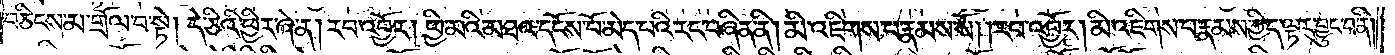བཅིངས་མ་གྲོལ་བ་སྟེ། དེ་ཅིའི་ཕྱིར་ཞེ་ན། རབ་འབྱོར། ཕྱི་མའི་མཐའ་དངོས་པོ་མེད་པའི་རང་བཞིན་ནི། མི་འཇིགས་པ་རྣམས་སོ། །རབ་འབྱོར། མི་འཇིགས་པ་རྣམས་ཀྱི་ད་ལྟར་བྱུང་བ་ནི།
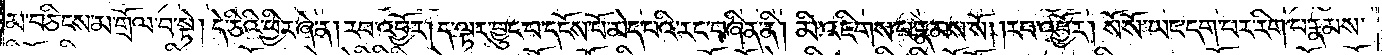མ་བཅིངས་མ་གྲོལ་བ་སྟེ། དེ་ཅིའི་ཕྱིར་ཞེ་ན། རབ་འབྱོར། ད་ལྟར་བྱུང་བ་དངོས་པོ་མེད་པའི་རང་བཞིན་ནི། མི་འཇིགས་པ་རྣམས་སོ། །རབ་འབྱོར། སོ་སོ་ཡང་དག་པར་རིག་པ་རྣམས་
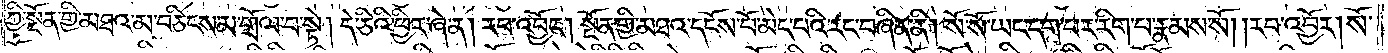ཀྱི་སྔོན་གྱི་མཐའ་མ་བཅིངས་མ་གྲོལ་བ་སྟེ། དེ་ཅིའི་ཕྱིར་ཞེ་ན། རབ་འབྱོར། སྔོན་གྱི་མཐའ་དངོས་པོ་མེད་པའི་རང་བཞིན་ནི། སོ་སོ་ཡང་དག་པར་རིག་པ་རྣམས་སོ། །རབ་འབྱོར། སོ་
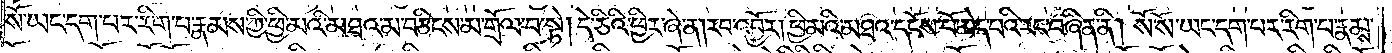སོ་ཡང་དག་པར་རིག་པ་རྣམས་ཀྱི་ཕྱི་མའི་མཐའ་མ་བཅིངས་མ་གྲོལ་བ་སྟེ། དེ་ཅིའི་ཕྱིར་ཞེ་ན། རབ་འབྱོར། ཕྱི་མའི་མཐའ་དངོས་པོ་མེད་པའི་རང་བཞིན་ནི། སོ་སོ་ཡང་དག་པར་རིག་པ་རྣམས་
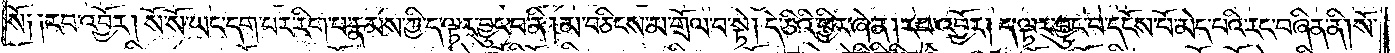སོ༑ ༑རབ་འབྱོར། སོ་སོ་ཡང་དག་པར་རིག་པ་རྣམས་ཀྱི་ད་ལྟར་བྱུང་བ་ནི། མ་བཅིངས་མ་གྲོལ་བ་སྟེ། དེ་ཅིའི་ཕྱིར་ཞེ་ན། རབ་འབྱོར། ད་ལྟར་བྱུང་བ་དངོས་པོ་མེད་པའི་རང་བཞིན་ནི། སོ་
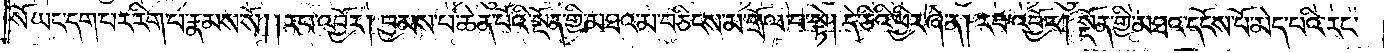སོ་ཡང་དག་པར་རིག་པ་རྣམས་སོ། །རབ་འབྱོར། བྱམས་པ་ཆེན་པོའི་སྔོན་གྱི་མཐའ་མ་བཅིངས་མ་གྲོལ་བ་སྟེ། དེ་ཅིའི་ཕྱིར་ཞེ་ན། རབ་འབྱོར། སྔོན་གྱི་མཐའ་དངོས་པོ་མེད་པའི་རང་
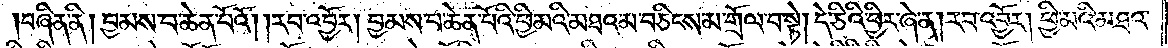བཞིན་ནི། བྱམས་པ་ཆེན་པོའོ། །རབ་འབྱོར། བྱམས་པ་ཆེན་པོའི་ཕྱི་མའི་མཐའ་མ་བཅིངས་མ་གྲོལ་བ་སྟེ། དེ་ཅིའི་ཕྱིར་ཞེ་ན། རབ་འབྱོར། ཕྱི་མའི་མཐའ་
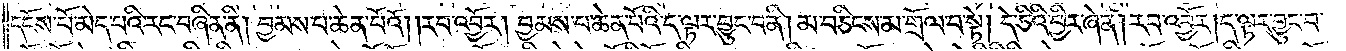དངོས་པོ་མེད་པའི་རང་བཞིན་ནི། བྱམས་པ་ཆེན་པོའོ། །རབ་འབྱོར། བྱམས་པ་ཆེན་པོའི་ད་ལྟར་བྱུང་བ་ནི། མ་བཅིངས་མ་གྲོལ་བ་སྟེ། དེ་ཅིའི་ཕྱིར་ཞེ་ན། རབ་འབྱོར། ད་ལྟར་བྱུང་བ་
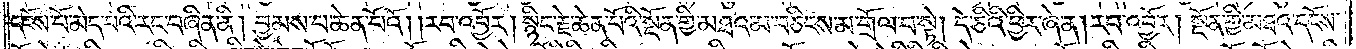དངོས་པོ་མེད་པའི་རང་བཞིན་ནི། བྱམས་པ་ཆེན་པོའོ། །རབ་འབྱོར། སྙིང་རྗེ་ཆེན་པོའི་སྔོན་གྱི་མཐའ་མ་བཅིངས་མ་གྲོལ་བ་སྟེ། དེ་ཅིའི་ཕྱིར་ཞེ་ན། རབ་འབྱོར། སྔོན་གྱི་མཐའ་དངོས་
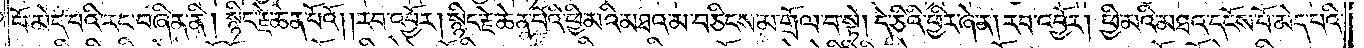པོ་མེད་པའི་རང་བཞིན་ནི། སྙིང་རྗེ་ཆེན་པོའོ། །རབ་འབྱོར། སྙིང་རྗེ་ཆེན་པོའི་ཕྱི་མའི་མཐའ་མ་བཅིངས་མ་གྲོལ་བ་སྟེ། དེ་ཅིའི་ཕྱིར་ཞེ་ན། རབ་འབྱོར། ཕྱི་མའི་མཐའ་དངོས་པོ་མེད་པའི་
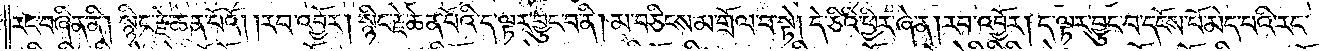རང་བཞིན་ནི། སྙིང་རྗེ་ཆེན་པོའོ། །རབ་འབྱོར། སྙིང་རྗེ་ཆེན་པོའི་ད་ལྟར་བྱུང་བ་ནི། མ་བཅིངས་མ་གྲོལ་བ་སྟེ། དེ་ཅིའི་ཕྱིར་ཞེ་ན། རབ་འབྱོར། ད་ལྟར་བྱུང་བ་དངོས་པོ་མེད་པའི་རང་
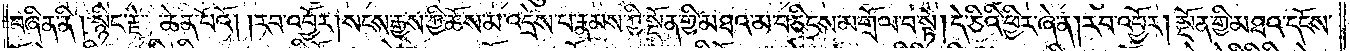བཞིན་ནི། སྙིང་རྗེ་ཆེན་པོའོ། །རབ་འབྱོར། སངས་རྒྱས་ཀྱི་ཆོས་མ་འདྲེས་པ་རྣམས་ཀྱི་སྔོན་གྱི་མཐའ་མ་བཅིངས་མ་གྲོལ་བ་སྟེ། དེ་ཅིའི་ཕྱིར་ཞེ་ན། རབ་འབྱོར། སྔོན་གྱི་མཐའ་དངོས་
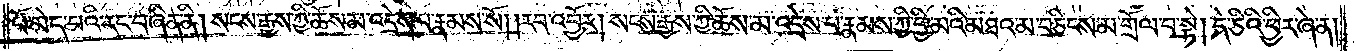པོ་མེད་པའི་རང་བཞིན་ནི། སངས་རྒྱས་ཀྱི་ཆོས་མ་འདྲེས་པ་རྣམས་སོ། །རབ་འབྱོར། སངས་རྒྱས་ཀྱི་ཆོས་མ་འདྲེས་པ་རྣམས་ཀྱི་ཕྱི་མའི་མཐའ་མ་བཅིངས་མ་གྲོལ་བ་སྟེ། དེ་ཅིའི་ཕྱིར་ཞེ་ན།
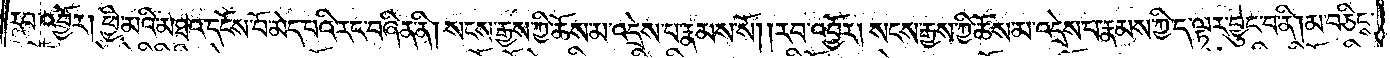རབ་འབྱོར། ཕྱི་མའི་མཐའ་དངོས་པོ་མེད་པའི་རང་བཞིན་ནི། སངས་རྒྱས་ཀྱི་ཆོས་མ་འདྲེས་པ་རྣམས་སོ། །རབ་འབྱོར། སངས་རྒྱས་ཀྱི་ཆོས་མ་འདྲེས་པ་རྣམས་ཀྱི་ད་ལྟར་བྱུང་བ་ནི། མ་བཅིངས་
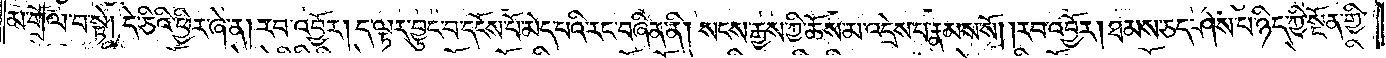མ་གྲོལ་བ་སྟེ། དེ་ཅིའི་ཕྱིར་ཞེ་ན། རབ་འབྱོར། ད་ལྟར་བྱུང་བ་དངོས་པོ་མེད་པའི་རང་བཞིན་ནི། སངས་རྒྱས་ཀྱི་ཆོས་མ་འདྲེས་པ་རྣམས་སོ། །རབ་འབྱོར། ཐམས་ཅད་ཤེས་པ་ཉིད་ཀྱི་སྔོན་གྱི་
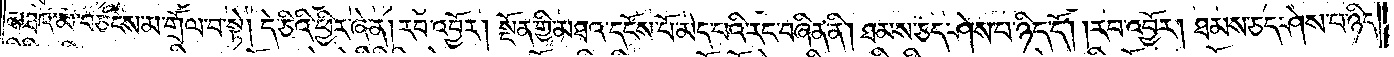མཐའ་མ་བཅིངས་མ་གྲོལ་བ་སྟེ། དེ་ཅིའི་ཕྱིར་ཞེ་ན། རབ་འབྱོར་སྔོན་གྱི་མཐའ་དངོས་པོ་མེད་པའི་རང་བཞིན་ནི། ཐམས་ཅད་ཤེས་པ་ཉིད་དོ། །རབ་འབྱོར། ཐམས་ཅད་ཤེས་པ་ཉིད་
